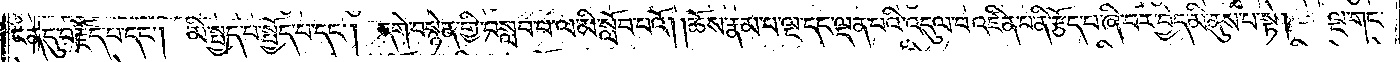ངན་དུ་བརྗོད་པ་དང༌། མི་སྤྱད་པ་སྤྱོད་པ་དང༌། དགེ་བསྙེན་གྱི་བསླབ་པ་ལ་མི་སློབ་པའོ། །ཆོས་རྣམ་པ་ལྔ་དང་ལྡན་པའི་འདུལ་བ་འཛིན་པ་ནི་རྩོད་པ་ཞི་བར་བྱེད་མི་ནུས་པ་སྟེ། ལྔ་གང་
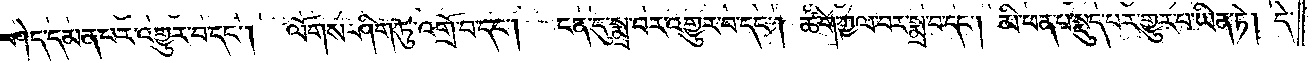ཞེ་ན། ཤེད་དམན་པར་འགྱུར་བ་དང༌། ལོགས་ཤིག་ཏུ་འགྲོ་བ་དང༌། ངན་དུ་སྨྲ་བར་འགྱུར་བ་དང༌། ཚིག་ཀྱལ་བར་སྨྲ་བ་དང༌། མི་ཕན་པ་སྡུད་པར་གྱུར་པ་ཡིན་ཏེ། དེ་
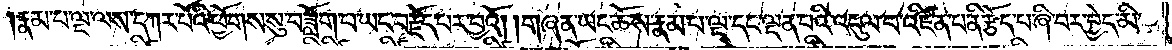རྣམ་པ་ལྔ་ལས་དཀར་པོའི་ཕྱོགས་སུ་བཟློག་པ་ཡང་བརྗོད་པར་བྱའོ། །གཞན་ཡང་ཆོས་རྣམ་པ་ལྔ་དང་ལྡན་པའི་འདུལ་བ་འཛིན་པ་ནི་རྩོད་པ་ཞི་བར་བྱེད་མི་
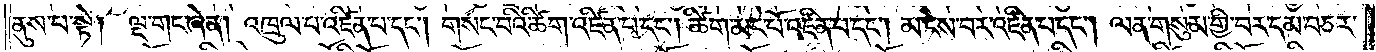ནུས་པ་སྟེ། ལྔ་གང་ཞེ་ན། འཁྲུལ་བ་འཛིན་པ་དང༌། གསང་བའི་ཚིག་འཛིན་པ་དང༌། ཚིག་མང་པོ་འཛིན་པ་དང༌། མ་ངེས་པར་འཛིན་པ་དང༌། ལན་གསུམ་གྱི་བར་དམ་བཅར་
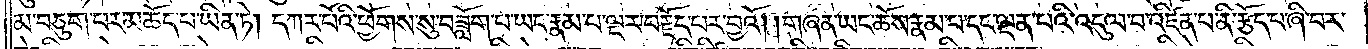མ་བཅུག་པར་མཆོད་པ་ཡིན་ཏེ། དཀར་པོའི་ཕྱོགས་སུ་བཟློག་པ་ཡང་རྣམ་པ་ལྔར་བརྗོད་པར་བྱའོ། །གཞན་ཡང་ཆོས་རྣམ་པ་དང་ལྡན་པའི་འདུལ་བ་འཛིན་པ་ནི་རྩོད་པ་ཞི་བར་
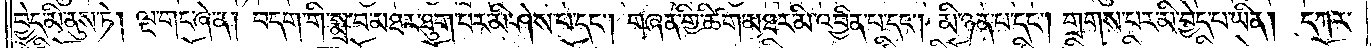བྱེད་མི་ནུས་ཏེ། ལྔ་གང་ཞེ་ན། བདག་གི་སྨྲ་བ་མཐར་ཐུག་པར་མི་ཤེས་པ་དང༌། གཞན་གྱི་ཚིག་མཐར་མི་འབྱིན་པ་དང༌། མི་ཉན་པ་དང༌། གྲགས་པར་མི་བྱེད་པ་ཡིན། དཀར་
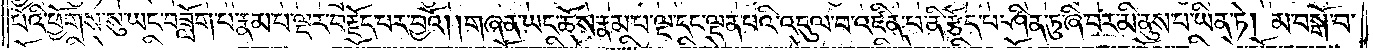པོའི་ཕྱོགས་སུ་ཡང་བཟློག་པ་རྣམ་པ་ལྔར་བརྗོད་པར་བྱའོ། །གཞན་ཡང་ཆོས་རྣམ་པ་ལྔ་དང་ལྡན་པའི་འདུལ་བ་འཛིན་པ་ནི་རྩོད་པ་ཤིན་ཏུ་ཞི་བར་མི་ནུས་པ་ཡིན་ཏེ། མ་བསྒོ་བ་
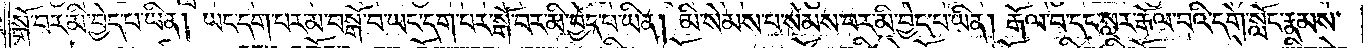སྒོ་བར་མི་བྱེད་པ་ཡིན། ཡང་དག་པར་མ་བསྒོ་བ་ཡང་དག་པར་སྒོ་བར་མི་བྱེད་པ་ཡིན། མི་སེམས་པ་སེམས་བར་མི་བྱེད་པ་ཡིན། རྒོལ་བ་དང་སླར་རྒོལ་བའི་དགེ་སློང་རྣམས་
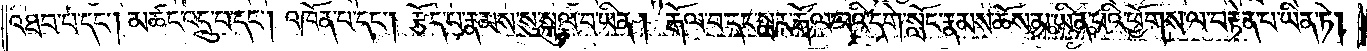འཐབ་པ་དང༌། མཚང་འདྲུ་བ་དང༌། འཁོན་པ་དང༌། རྩོད་པ་རྣམས་སུ་སྐུལ་བ་ཡིན། རྒོལ་བ་དང་སླར་རྒོལ་བའི་དགེ་སློང་རྣམས་ཆོས་མ་ཡིན་པའི་ཕྱོགས་ལ་བརྟེན་པ་ཡིན་ཏེ།
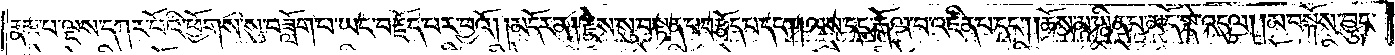རྣམ་པ་ལྔས་དཀར་པོའི་ཕྱོགས་སུ་བཟློག་པ་ཡང་བརྗོད་པར་བྱའོ། །མདོར་ན། རྗེས་སུ་བསྟན་པ་བརྩོད་པ་དང༌། །ལས་དང་རྒོལ་བ་འཛིན་པ་དང༌། །ཆོས་མ་ཡིན་པ་མདོ་སྡེ་འདུལ། །མ་བསྐོས་བྱུང་
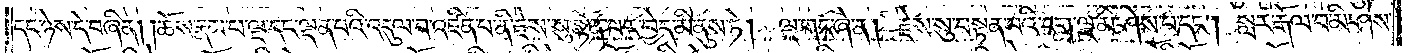དང་ཉེས་དེ་བཞིན། །ཆོས་རྣམ་པ་ལྔ་དང་ལྡན་པའི་འདུལ་བ་འཛིན་པ་ནི་རྗེས་སུ་སྟོན་པར་བྱེད་མི་ནུས་ཏེ། ལྔ་གང་ཞེ་ན། རྗེས་སུ་བསྟན་པའི་ངག་ལྔ་མི་ཤེས་པ་དང༌། སླར་རྒོལ་བ་མི་ཤེས་
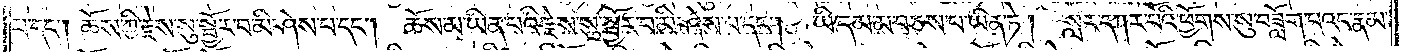པ་དང༌། ཆོས་ཀྱི་རྗེས་སུ་སྦྱོར་བ་མི་ཤེས་པ་དང༌། ཆོས་མ་ཡིན་པའི་རྗེས་སུ་སྦྱོར་བ་མི་ཤེས་པ་དང༌། ཡི་དམ་མ་བཅས་པ་ཡིན་ཏེ། སླར་དཀར་པོའི་ཕྱོགས་སུ་བཟློག་པའང་རྣམ་
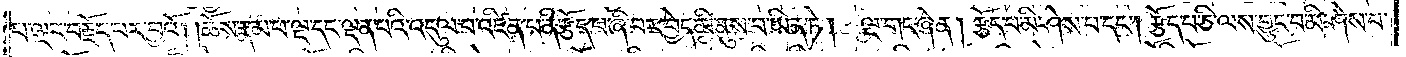པ་ལྔར་བརྗོད་པར་བྱའོ། །ཆོས་རྣམ་པ་ལྔ་དང་ལྡན་པའི་འདུལ་བ་འཛིན་པ་ནི་རྩོད་པ་ཞི་བར་བྱེད་མི་ནུས་པ་ཡིན་ཏེ། ལྔ་གང་ཞེན། རྩོད་པ་མི་ཤེས་པ་དང༌། རྩོད་པ་ཅི་ལས་བྱུང་བ་མི་ཤེས་པ་
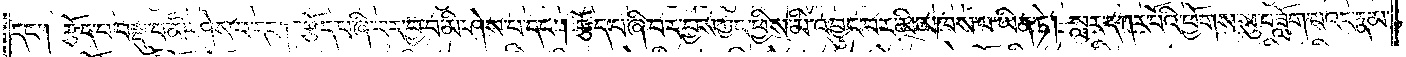དང༌། རྩོད་པ་བསྡུ་བ་མི་ཤེས་པ་དང༌། རྩོད་པ་ཞི་བར་བྱ་བ་མི་ཤེས་པ་དང༌། རྩོད་པ་ཞི་བར་བྱས་ཀྱང་ཕྱིས་མི་འབྱུང་བར་མི་མཁས་པ་ཡིན་ཏེ། སླར་དཀར་པོའི་ཕྱོགས་སུ་བཟློག་པའང་རྣམ་
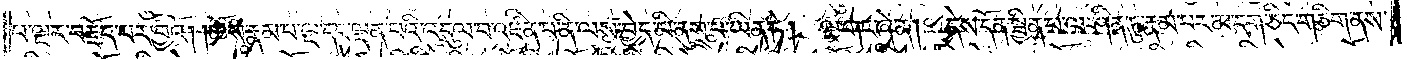པ་ལྔར་བརྗོད་པར་བྱའོ། །ཆོས་རྣམ་པ་ལྔ་དང་ལྡན་པའི་འདུལ་བ་འཛིན་པ་ནི་ལས་བྱེད་མི་ནུས་པ་ཡིན་ཏེ། ལྔ་གང་ཞེ་ན། དེས་དོན་སྦྱིན་པ་ལ་ཤིན་ཏུ་རྣམ་པར་མ་དག་ཅིང་གཅིག་ནས་
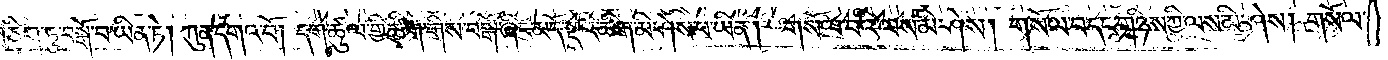གཅིག་ཏུ་བསྒོ་བ་ཡིན་ཏེ། ཀུན་དགའ་བོ། དགེ་ཚུལ་གྱི་ཚིག་གིས་བསྒོ་ཞིང་མདོ་སྡེའི་ཚིག་མི་ཤེས་པ་ཡིན། གསོལ་བའི་ལས་མི་ཤེས། གསོལ་བ་དང་གཉིས་ཀྱི་ལས་མི་ཤེས། གསོལ་
